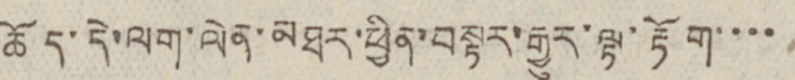ཆོད་དེ་ལག་ལེན་མཐར་ཕྱིན་བསྟར་རྒྱུར་ལྟ་རྟོག་་་་
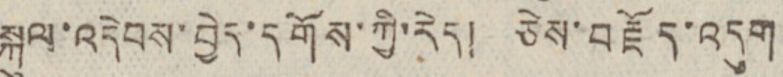སྐུལ་འདེབས་བྱེད་དགོས་ཀྱི་རེད། ཅེས་བརྗོད་འདུག
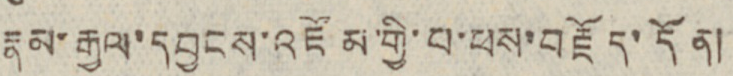རྣམ་རྒྱལ་དབྱངས་འཛོམ་གྱི་པ་ཕས་བརྗོད་དོན།
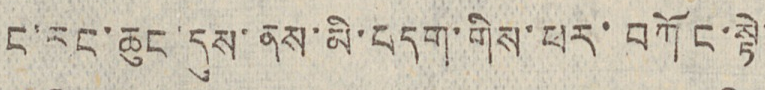ང་རང་ཆུང་དུས་ནས་མི་བདག་གིས་པར་བཀོང་སྟེ་
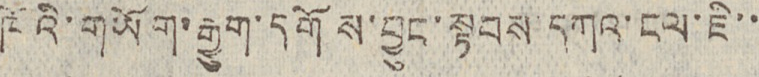ཁོའི་གཡོག་རྒྱུག་དགོས་བྱུང་སྟབས་དཀའ་ངལ་ཇི་་
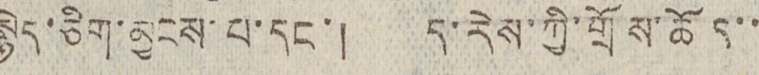སྙེད་ཅིག་མྱངས་པ་དང་། ད་རེས་ཀྱི་གྲོས་ཆོད་་
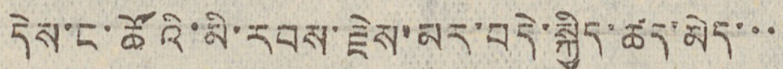དེས་ང་ཚོའི་མི་རབས་རྗེས་མར་བདེ་སྐྱིད་ཚད་མེད་་་
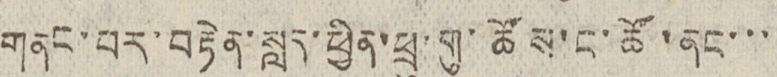གནང་པར་བརྟེན་སླད་ཕྱིན་ཕྲུ་གུ་ཚོས་ང་ཚོ་ནང་་་
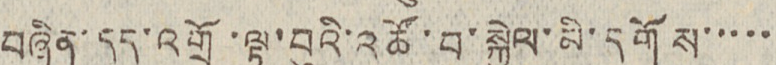བཞིན་དུད་འགྲོ་ལྟ་བུའི་འཚོ་བ་སྐྱེལ་མི་དགོས་་་་་
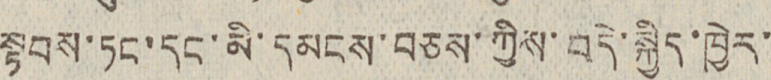སྟབས་ཏང་དང་མི་དམངས་བཅས་ཀྱིས་བདེ་སྐྱིད་ཁྱེར་
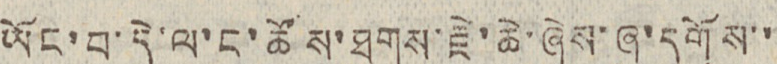ཡོང་བ་དེ་ལ་ང་ཚོས་ཐུགས་རྗེ་ཆེ་ཞེས་ཞུ་དགོས་་
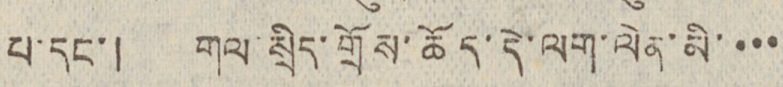པ་དང་། གལ་སྲིད་གྲོས་ཆོད་དེ་ལག་ལེན་མི་་་་
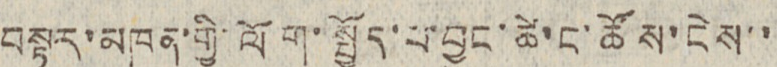བསྟར་མཁན་གྱི་ལོག་སྤྱོད་པ་བྱུང་ཚེ་ང་ཚོས་ངེས་་
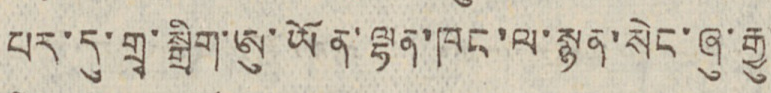པར་དུ་གྲྭ་སྒྲིག་ཨུ་ཡོན་ལྷན་ཁང་ལ་སྙན་སེང་ཞུ་རྒྱུ་
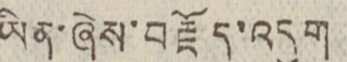ཡིན་ཞེས་བརྗོད་འདུག
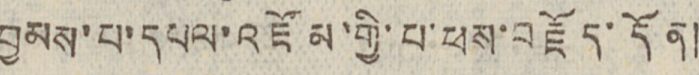བྱམས་པ་དཔལ་འཛོམ་གྱི་པ་ཕས་བརྗོད་དོན།
